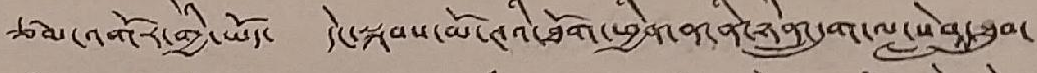ཙམ་འགོར་གྱི་ཡོད་ དེང་སྐབས་མོ་ཊའི་ཐོག་ཕྱིན་ན་ནི་ཉིན་དྲུག་ལ་སླེབ་ཐུབ་
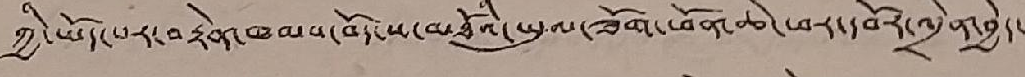ཀྱི་ཡོད་པར་བརྟེན་ཁམས་བོད་ས་མཐོའི་ཡུལ་ཟོག་ཕོན་ཆེ་བར་དབོར་འདྲེན་བྱེད་
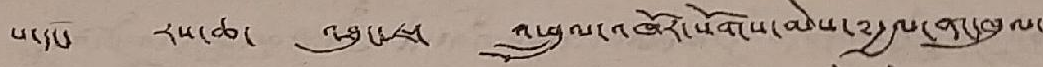པ་དང་ རས་ཆ་ འཐུང་ཇ་ འཕྲུལ་འཁོར་སོགས་མེས་རྒྱལ་ནང་ཁུལ་
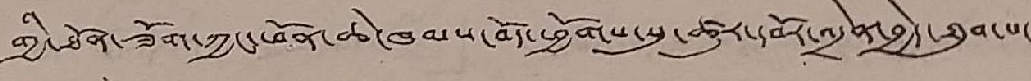གྱི་ཐོན་ཟོག་ཀྱང་ཕོན་ཆེ་ཁམས་བོད་ཕྱོགས་སུ་ཚུར་དབོར་འདྲེན་བྱེད་ཐུབ་པ་
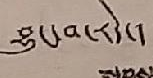བྱུང་བ་རེད་།
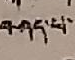བཤད་པ་
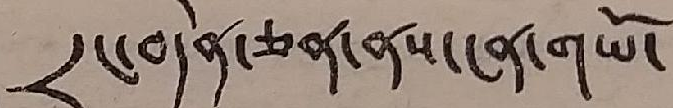དྲང་བདེན་ཅན་ནས་ངན་ག་ཡོ་
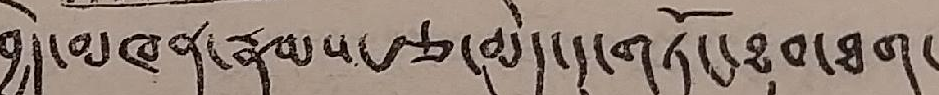བྱེད་མཁན་རྣམས་རྩ་མེད་དུ་གཏོང་ཐུབ་ཐག་
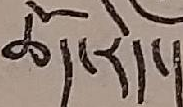ཆོད་རེད།
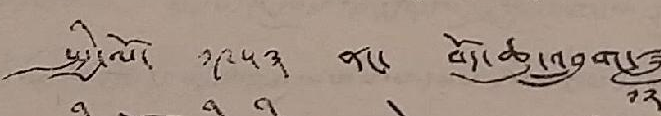སྤྱི་ལོ་ ༡༩༥༣ ནང་ བོད་ཆུ་འབྲུག་ཟླ་
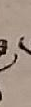༡༢
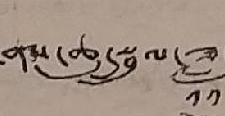ནས་ཆུ་སྦྲུལ་ཟླ་
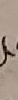༡༡
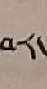བར་
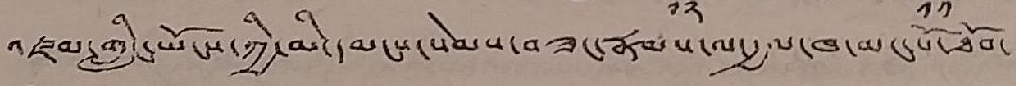འཛམ་གླིང་ཡོངས་ཀྱི་མི་དམངས་སེམས་བཟང་རྣམས་ལ་རྒྱལ་ཁ་མང་པོ་ཐོབ་
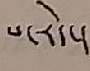པ་རེད་།
